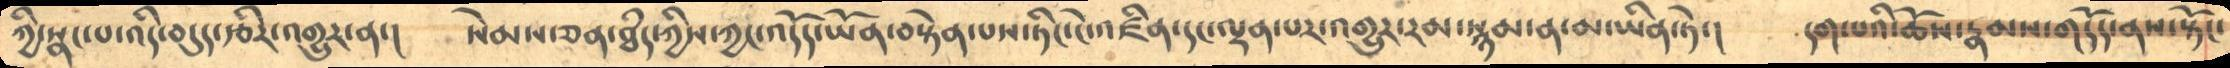ཀྱི་སྣང་པ་འདི་བདུད་རྩིར་འགྱུར་ན་།   སེམས་ཅན་ཐཾད་ཀྱིས་ཀྱང་འདོད་ཡོན་བསྟེན་པས་ཏིང་ངེ་འཛིན་དང་ལྡན་པར་འགྱུར་རམ་སྙམ་ན་མ་ཡིན་ཏེ་།   དག་པའི་ཆོས་རྣམས་གདོད་ནས་སྟོང་
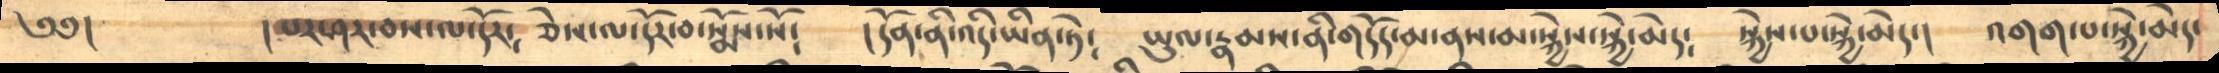༄༅།         །པར་ཤར་བས་ལ་དོར༴   ཅེས་ལ་དོར་བ་སྨོས་སོ༴    །དོན་ནི་འདི་ཡིན་ཏེ༴   ཡུལ་རྣམས་ནི་གདོད་མ་ནས་མ་སྐྱེས་སྐྱེ་མེད༴    སྐྱེས་པ་སྐྱེ་མེད་།   འགག་པ་སྐྱེ་མེད་
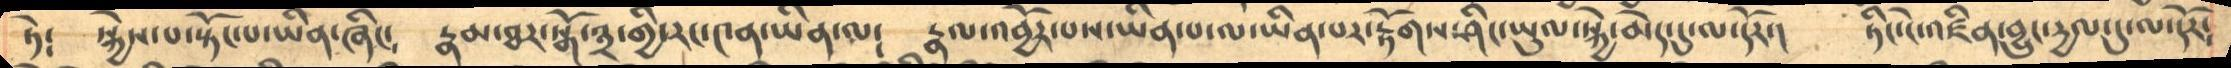ཏེ༴   སྐྱེས་པ་སྟོང་པ་ཡིན་ཞིང༴    རྣམ་ཐར་སྒོ་༣་གྱི་རང་༤ན་ཡིན་ལ༴   རྣལ་འབྱོར་པས་ཡིན་པ་ལ་ཡིན་པར་རྟོགས་ཤིང་ཡུལ་སྐྱེ་མེད་དུ་ལ་དོར་།   ཏིང་ངེ་འཛིན་བྱུང་དྱལ་དུ་ལ་དོར༴
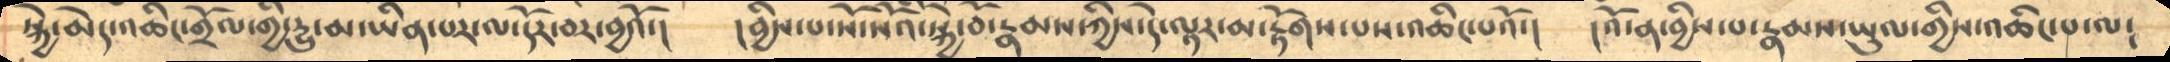སྐྱེ་མེད་འཆིང་གྲོལ་གྱི་དྱུ་མ་ཡིན་པར་ལ་དོར་བར་བྱའོ་།    །བྱིས་པ་སོ་སོའི་སྐྱེ་བོ་རྣམས་ཀྱིས་དེ་ལྟར་མ་རྟོགས་པས་འཆིང་པའོ་།   །འོ་ན་བྱིས་པ་རྣམས་ཡུལ་གྱིས་འཆིང་པ་ལ༴
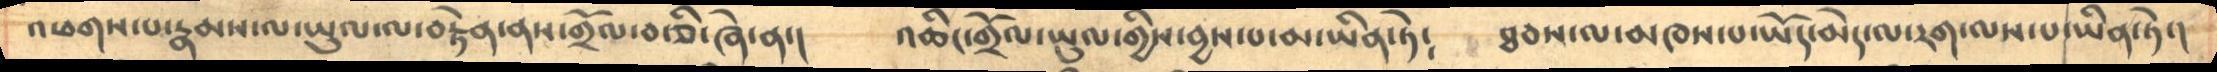འཕགས་པ་རྣམས་ལ་ཡུལ་ལབརྟེན་ནས་གྲོལ་བ་ཅི་ཞེ་ན་།   འཆིང་གྲོལ་ཡུལ་གྱིས་བྱས་པ་མ་ཡིན་ཏེ༴    ཐབས་ལ་མཁས་པ་ཡོད་མེད་ལ་རག་ལས་པ་ཡིན་ཏེ་།
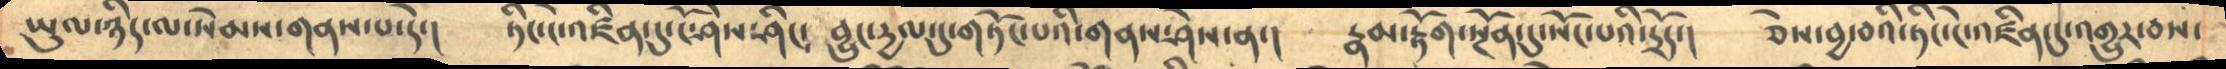ཡུལ་ཉིད་ལ་སེམས་གནས་པ་དེ་།     ཏིང་ངེ་འཛིན་དུ་ངོ་ཤེས་ཤིང༴   བྱུང་དྱལ་དུ་གཏོང་པའི་གནས་ཤེས་ན་།    རྣམ་རྟོགསྔོན་དུ་སོང་པའི་དྲོད་།   ཅེས་བྱ་བའི་ཏིང་ངེ་འཛིན་དུ་འགྱུར་བས་
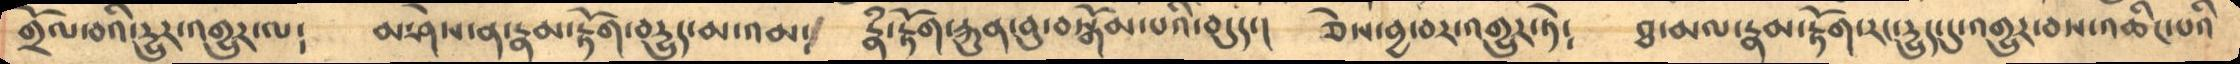གྲོལ་བའི་དྱུར་འགྱུར་ལ༴    མ་ཤེས་ན་རྣམ་རྟོག་བདྱུད་མ་འམ༴   རྣཾ་རྟོག་རྐུན་བུ་བསྒོམ་པའི་བདུད་།   ཅེས་བྱ་བར་འགྱུར་ཏེ༴   ཐ་མལ་རྣམ་རྟོག་རང་དྱུད་དུ་འགྱུར་བས་འཆིང་པའི
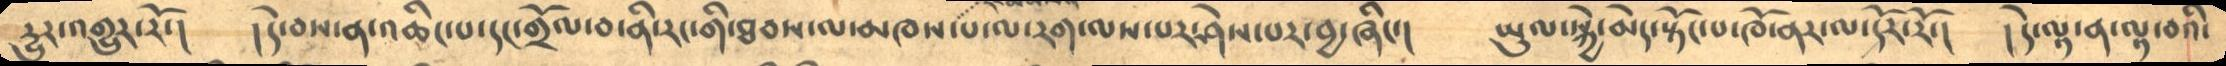དྱུར་འགྱུར་རོ་།    །དེ་བས་ན་འཆིང་པ་དང་གྲོལ་བ་ནི་རང་གི་ཐབས་ལ་མཁས་པ་ལ་རག་ལས་པར་ཤེས་པར་བྱ་ཞིང་།   ཡུལ་སྐྱེ་མེད་སྟོང་པ་ཁོ་ནར་ལ་དོར་རོ་།   །དེ་ལྟ་ན་ལྟ་བའི་
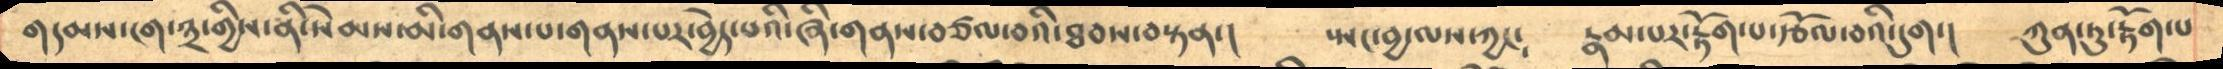གདམས་ངག་༣་གྱིས་ནི་སེམས་མི་གནས་པ་གནས་པར་བྱེད་པའི་ཞི་གནས་བཙལ་བའི་ཐབས་བསྟན་།     སྤང་བྱ་ལས་ཀྱང༴   རྣམ་པར་རྟོག་པ་རྩོལ་བའི་དུག་།   ཀུན་ཏུ་རྟོག་པ
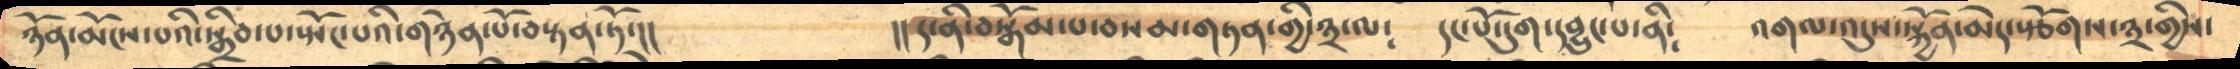ཉོན་མོངས་པའི་སྒྲིབ་པ་སྤོང་པའི་གཉེན་པོ་བསྟན་ཏོ་།།     །།ད་ནི་བསྒོམ་པ་བསམ་གཏན་གྱི་༣་ལ༴  དང་པོ་དུག་དབྱུང་པ་ནི༴   འགལ་འདུས་སྐྱོན་མེད་སྩོགས་༣་གྱིས་
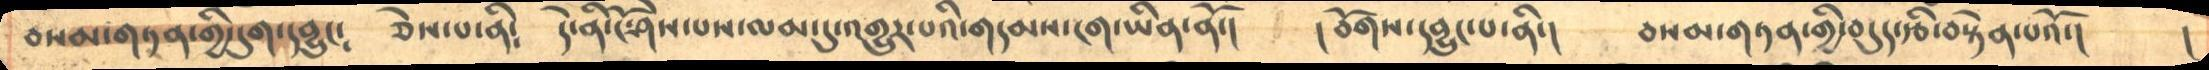བསམ་གཏན་གྱི་དུག་དབྱུང༴   ཅེས་པ་ནི༴   དེ་ནི་ངོ་ཤེས་པས་ལམ་དུ་འགྱུར་པའི་གདམས་ངག་ཡིན་ནོ་།  །བོགས་དབྱུང་པ་ནི་།  བསམ་གཏན་གྱི་བདུད་རྩི་བསྟེན་པའོ་།     །
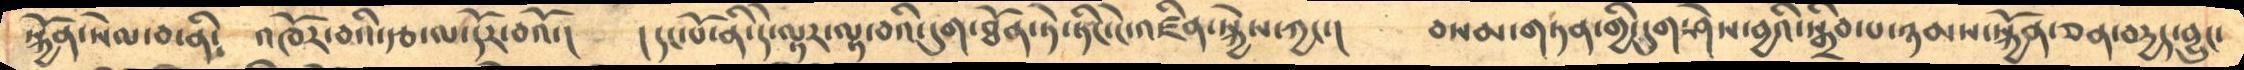སྐྱོན་སེལ་བ་ནི༴   འཁོར་བའི་རྩ་ལ་དོར་བའོ་།   །དང་པོ་ནི་དེ་ལྟར་ལྟ་བའི་དུག་ཐོན་ཏེ་ཏིང་ངེ་འཛིན་སྐྱེས་ཀྱང་།    བསམ་གཏན་གྱི་དུག་ཤེས་བྱའི་སྒྲིབ་པ་ཉམས་སྐྱོན་ཅན་བདྱད་བྱུང་
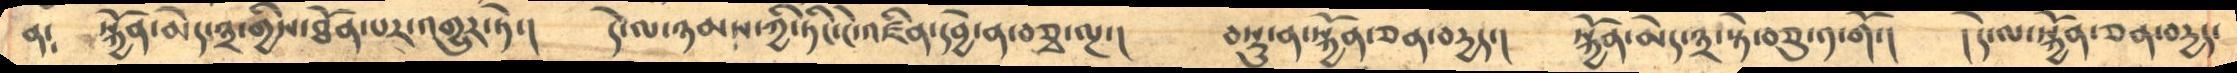ན༴   སྐྱོན་མེད་༣་གྱིས་ཐོན་པར་འགྱུར་ཏེ་།  དེ་ལ་ཉམས་ཀྱི་ཏིང་ངེ་འཛིན་དབྱེ་ན་བཅྭ་ལྔ་།   བསྡུ་ན་སྐྱོན་ཅན་བདྱད་།  སྐྱོན་མེད་༣་སྟེ་བཅུ་༡་གོ་།  །དེ་ལ་སྐྱོན་ཅན་བདྱད་
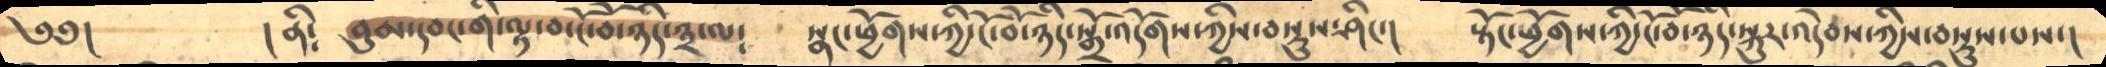༄༅།       །ནི༴  བུམ་དབང་གི་ལྟ་བ་ངོ་བོ་ཉིད་༣་ལ༴   སྣང་ཕྱོགས་ཀྱི་ངོ་བོ་ཉིད་སྒྲོ་འདོགས་ཀྱིས་བསྡུས་ཤིང་།    སྟོང་ཕྱོགས་ཀྱི་ངོ་བོ་ཉིད་སྐུར་འདེབས་ཀྱིས་བསྡུས་པས་།
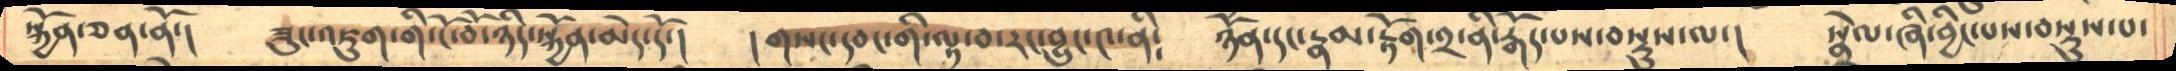སྐྱོན་ཅན་ནོ་།   ཟུང་འཇུག་གི་ངོ་བོ་ཉིད་སྐྱོན་མེད་དོ་།   །གསང་དབང་གི་ལྟ་བ་རང་བྱུང་༤་ནི༴   ཉོན་དང་རྣམ་རྟོག་༢་ནི་རྒོད་པས་བསྡུས་ལ་།   སྦྲེལ་ཞི་བྱིང་པས་བསྡུས་པ་
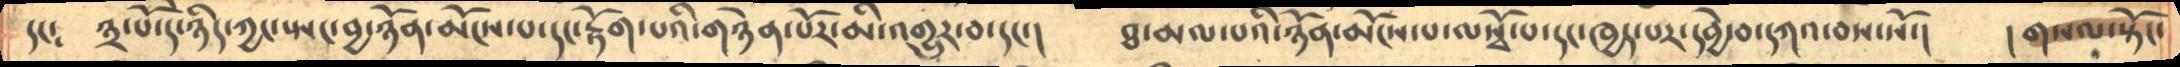དང༴   ༣་པོ་ད་ཉིད་ཀྱང་སྤང་བྱ་ཉོན་མོངས་པ་དང་རྟོག་པའི་གཉེན་པོར་མི་འགྱུར་བ་དང་།    ཐ་མལ་པའི་ཉོན་མོངས་པ་ལསྭོ་པ་དང་ཁྱད་པར་དབྱེ་བ་དཀའ་བས་སོ་།   །གསལ་སྟོང་
